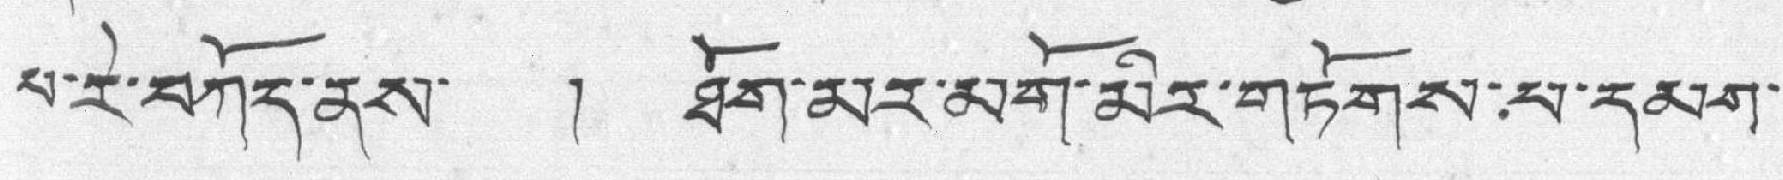པ་རེ་བཀོད་ནས་ ། ཐོག་མར་མགོ་མིར་གཏོགས་པ་དམག་
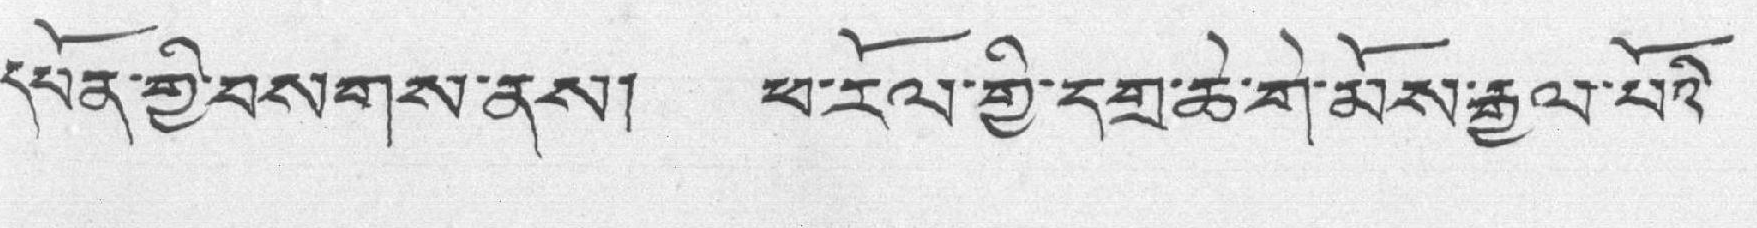དཔོན་གྱི་བསགས་ནས། ཕ་རོལ་གྱི་དགྲ་ཆེ་གེ་མོས་རྒྱལ་པོའི་
